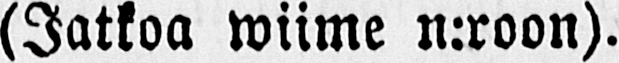(Jatkoa wiime n:roon).
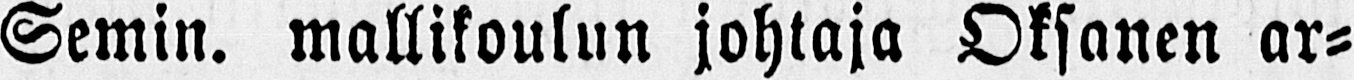Semin. mallikoulun johtaja Oksanen ar-
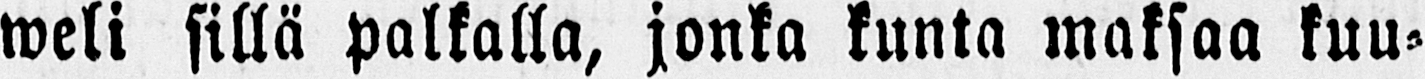weli sillä palkalla, jonka kunta maksaa kuu-
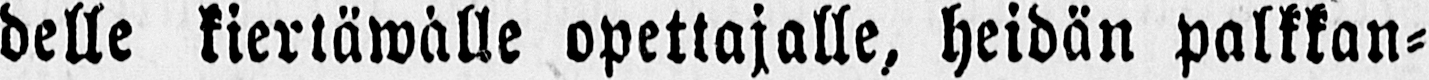delle kiertäwälle opettajalle, heidän palkkan-
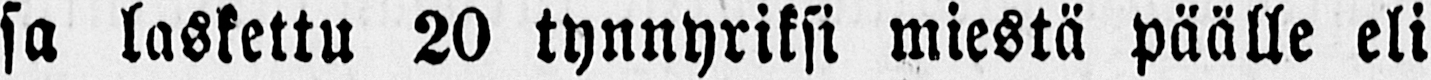sa laskettu 20 tynnyriksi miestä päälle eli
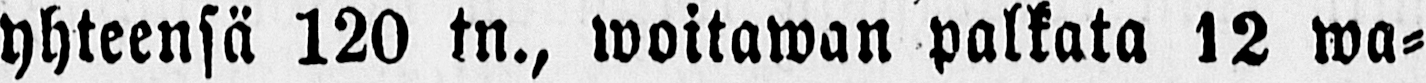yhteensä 120 tn., woitawan palkata 12 wa-
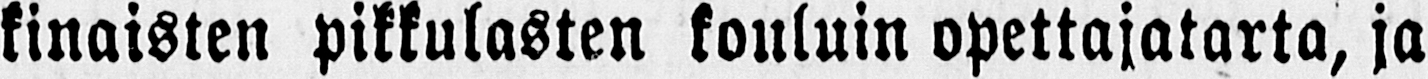kinaisten pikkulasten kouluin opettajatarta, ja
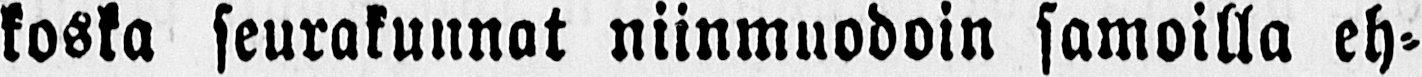koska seurakunnat niinmuodoin samoilla eh-
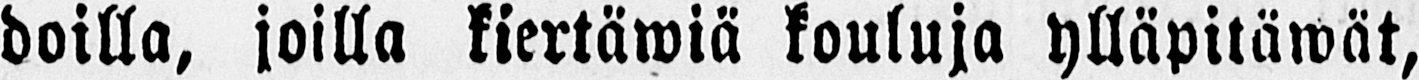doilla, joilla kiertäwiä kouluja ylläpitäwät,
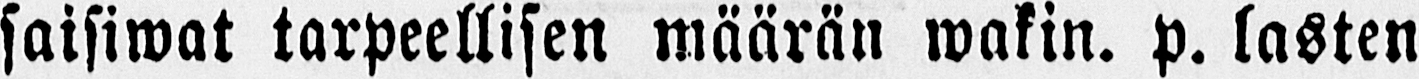saisiwat tarpeellisen määrän wakin. p. lasten
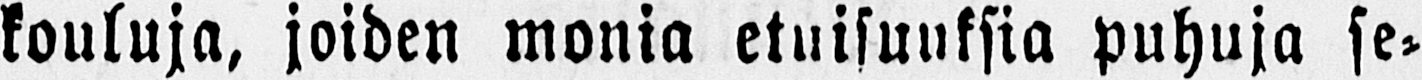kouluja, joiden monia etuisuuksia puhuja se-
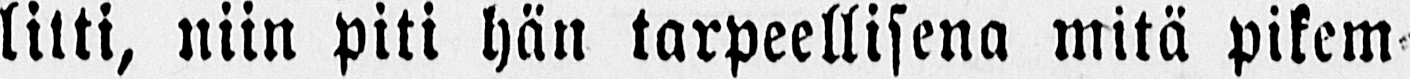litti, niin piti hän tarpeellisena mitä pikem-
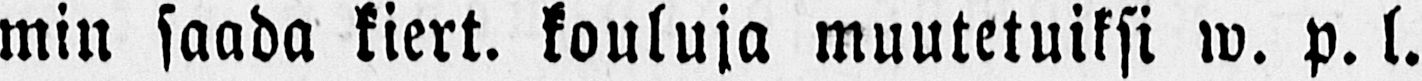min saada kiert. kouluja muutetuiksi w. p. l.
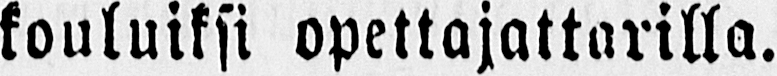kouluiksi opettajattarilla.
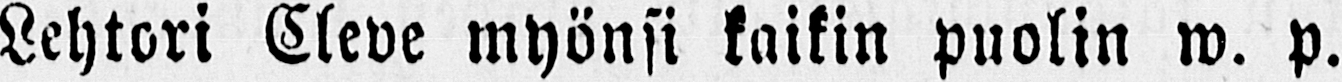Lehtori Cleve myönsi kaikin puolin w. p.
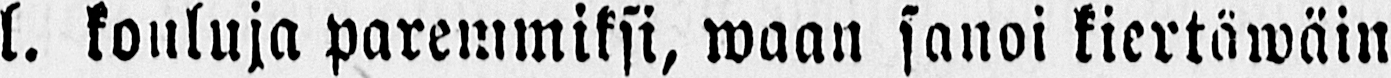l. kouluja paremmiksi, waan sanoi kiertäwäin-
